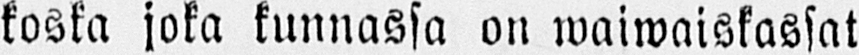koska joka kunnassa on waiwaiskassat
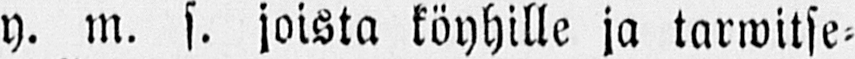y. m. s. joista köyhille ja tarwitse-
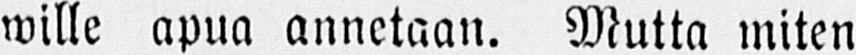wille apua annetaan. Mutta miten
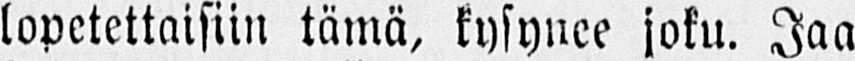lopetettaisiin tämä, kysynee joku. Jaa
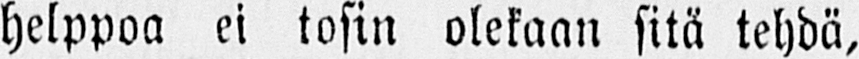helppoa ei tosin olekaan sitä tehdä,
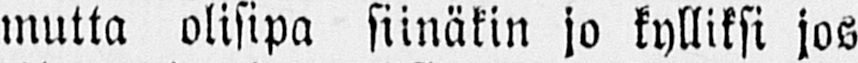mutta olisipa siinäkin jo kylliksi jos
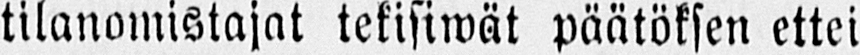tilanomistajat tekisiwät päätöksen ettei
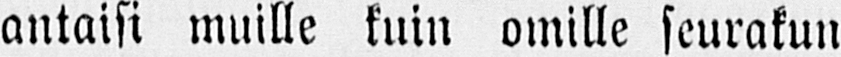antaisi muille kuin omille seurakun-
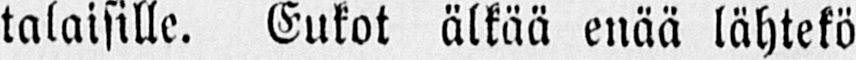talaisille. Eukot älkää enää lähtekö
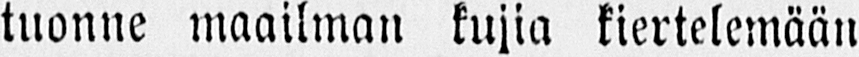tuonne maailman kujia kiertelemään
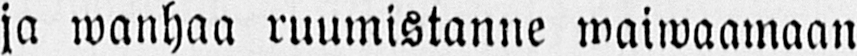ja wanhaa ruumistanne waiwaamaan
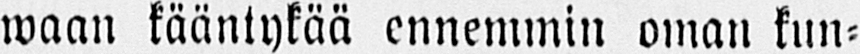waan kääntykää ennemmin oman kun-
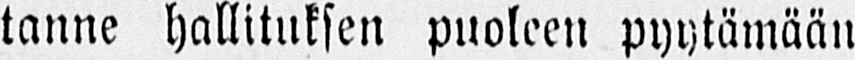tanne hallituksen puoleen pyytämään
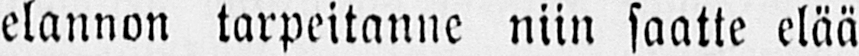elannon tarpeitanne niin saatte elää
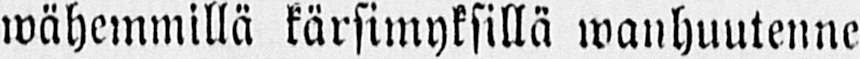wähemmillä kärsimyksillä wanhuutenne
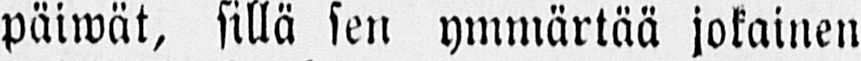päiwät, sillä sen ymmärtää jokainen
